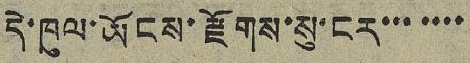དེ་ཁུལ་ཡོངས་རྫོགས་སུ་ངར་་་ ་་་་
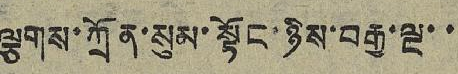ལྕགས་ཀྲོན་སུམ་སྟོང་ཉིས་བརྒྱ་ལྔ་་
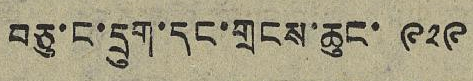བཅུ་ང་དྲུག་དང་གྲངས་ཆུང་ ༩༢༩
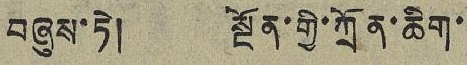བཞུས་ཏེ། སྔོན་གྱི་ཀྲོན་ཆིག་
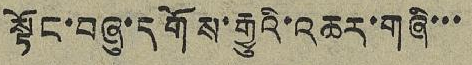སྟོང་བཞུ་དགོས་རྒྱུའི་འཆར་གཞི་་་
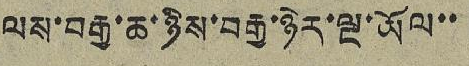ལས་བརྒྱ་ཆ་ཉིས་བརྒྱ་ཉེར་ལྔ་ཡོལ་་
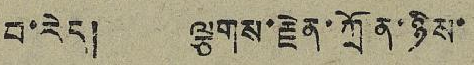བ་རེད། ལྕགས་རྗེན་ཀྲོན་ཉིས་
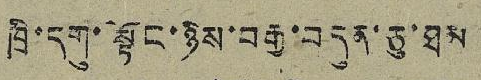ཁྲི་དགུ་སྟོང་ཉིས་བརྒྱ་བདུན་ཅུ་ཐམ
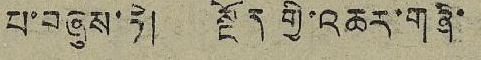པ་བཞུས་ཏེ། སྔོན གྱི་འཆར་གཞི་
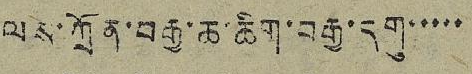ལས་ཀྲོན་བརྒྱ་ཆ་ཆིག་བརྒྱ་དགུ་་་་་
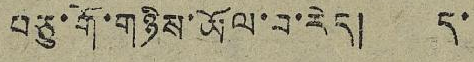བཅུ་གོ་གཉིས་ཡོལ་བ་རེད། ད་
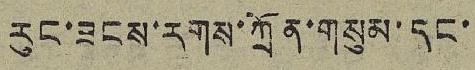རུང་ཟངས་རགས་ཀྲོན་གསུམ་དང་
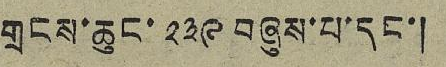གྲངས་ཆུང་ ༢༣༩ བཞུས་པ་དང་།
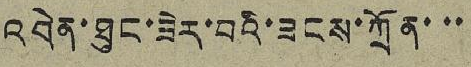འབེན་ཐུང་ཟེར་བའི་ཟངས་ཀྲོན་་་
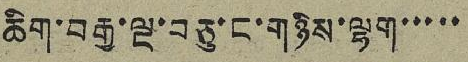ཆིག་བརྒྱ་ལྔ་བཅུ་ང་གཉིས་ལྷག་་་་་
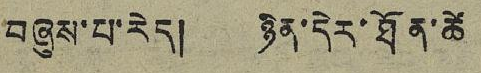བཞུས་པ་རེད། ཉིན་དེར་ཐོན་ཚེ
